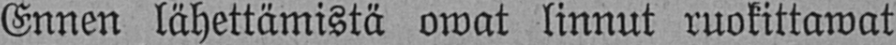Ennen lähettämistä owat linnut ruokittawat
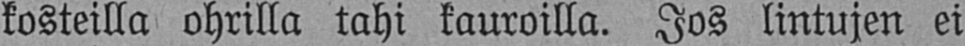kosteilla ohrilla tahi kauroilla. Jos lintujen ei
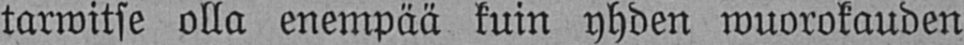tarwitse olla enempää kuin yhden wuorokauden
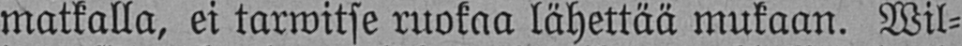matkalla, ei tarwitse ruokaa lähettää mukaan. Wil-
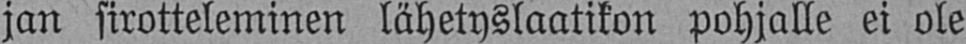jan sirotteleminen lähetyslaatikon pohjalle ei ole
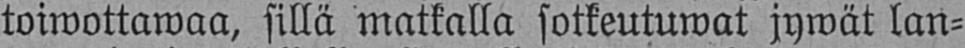toiwottawaa, sillä matkalla sotkeutuwat jywät lan-
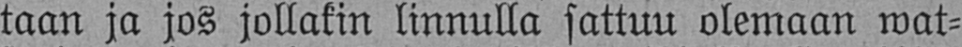taan ja jos jollakin linnulla sattuu olemaan wat-
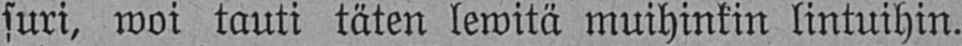suri, woi tauti täten lewitä muihinkin lintuihin.
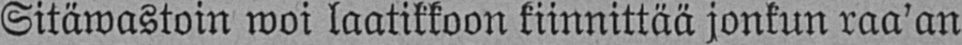Sitäwastoin woi laatikkoon kiinnittää jonkun raa'an
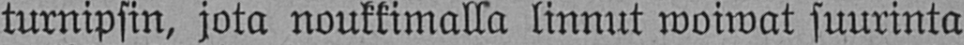turnipsin, jota noukkimalla linnut woiwat suurinta
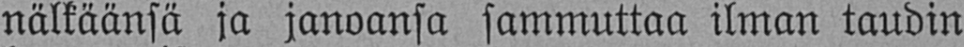nälkäänsä ja janoansa sammuttaa ilman taudin
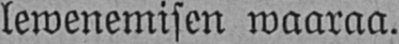lewenemisen waaraa.
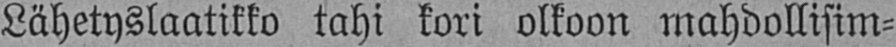Lähetyslaatikko tahi kori olkoon mahdollisim-
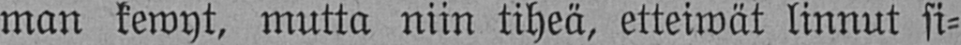man kewyt, mutta niin tiheä, etteiwät linnut si-
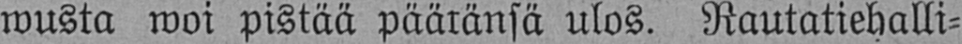wusta woi pistää päätänsä ulos. Rautatiehalli-
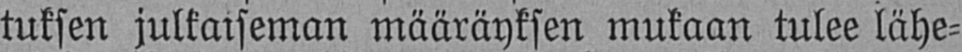tuksen julkaiseman määräyksen mukaan tulee lähe-
